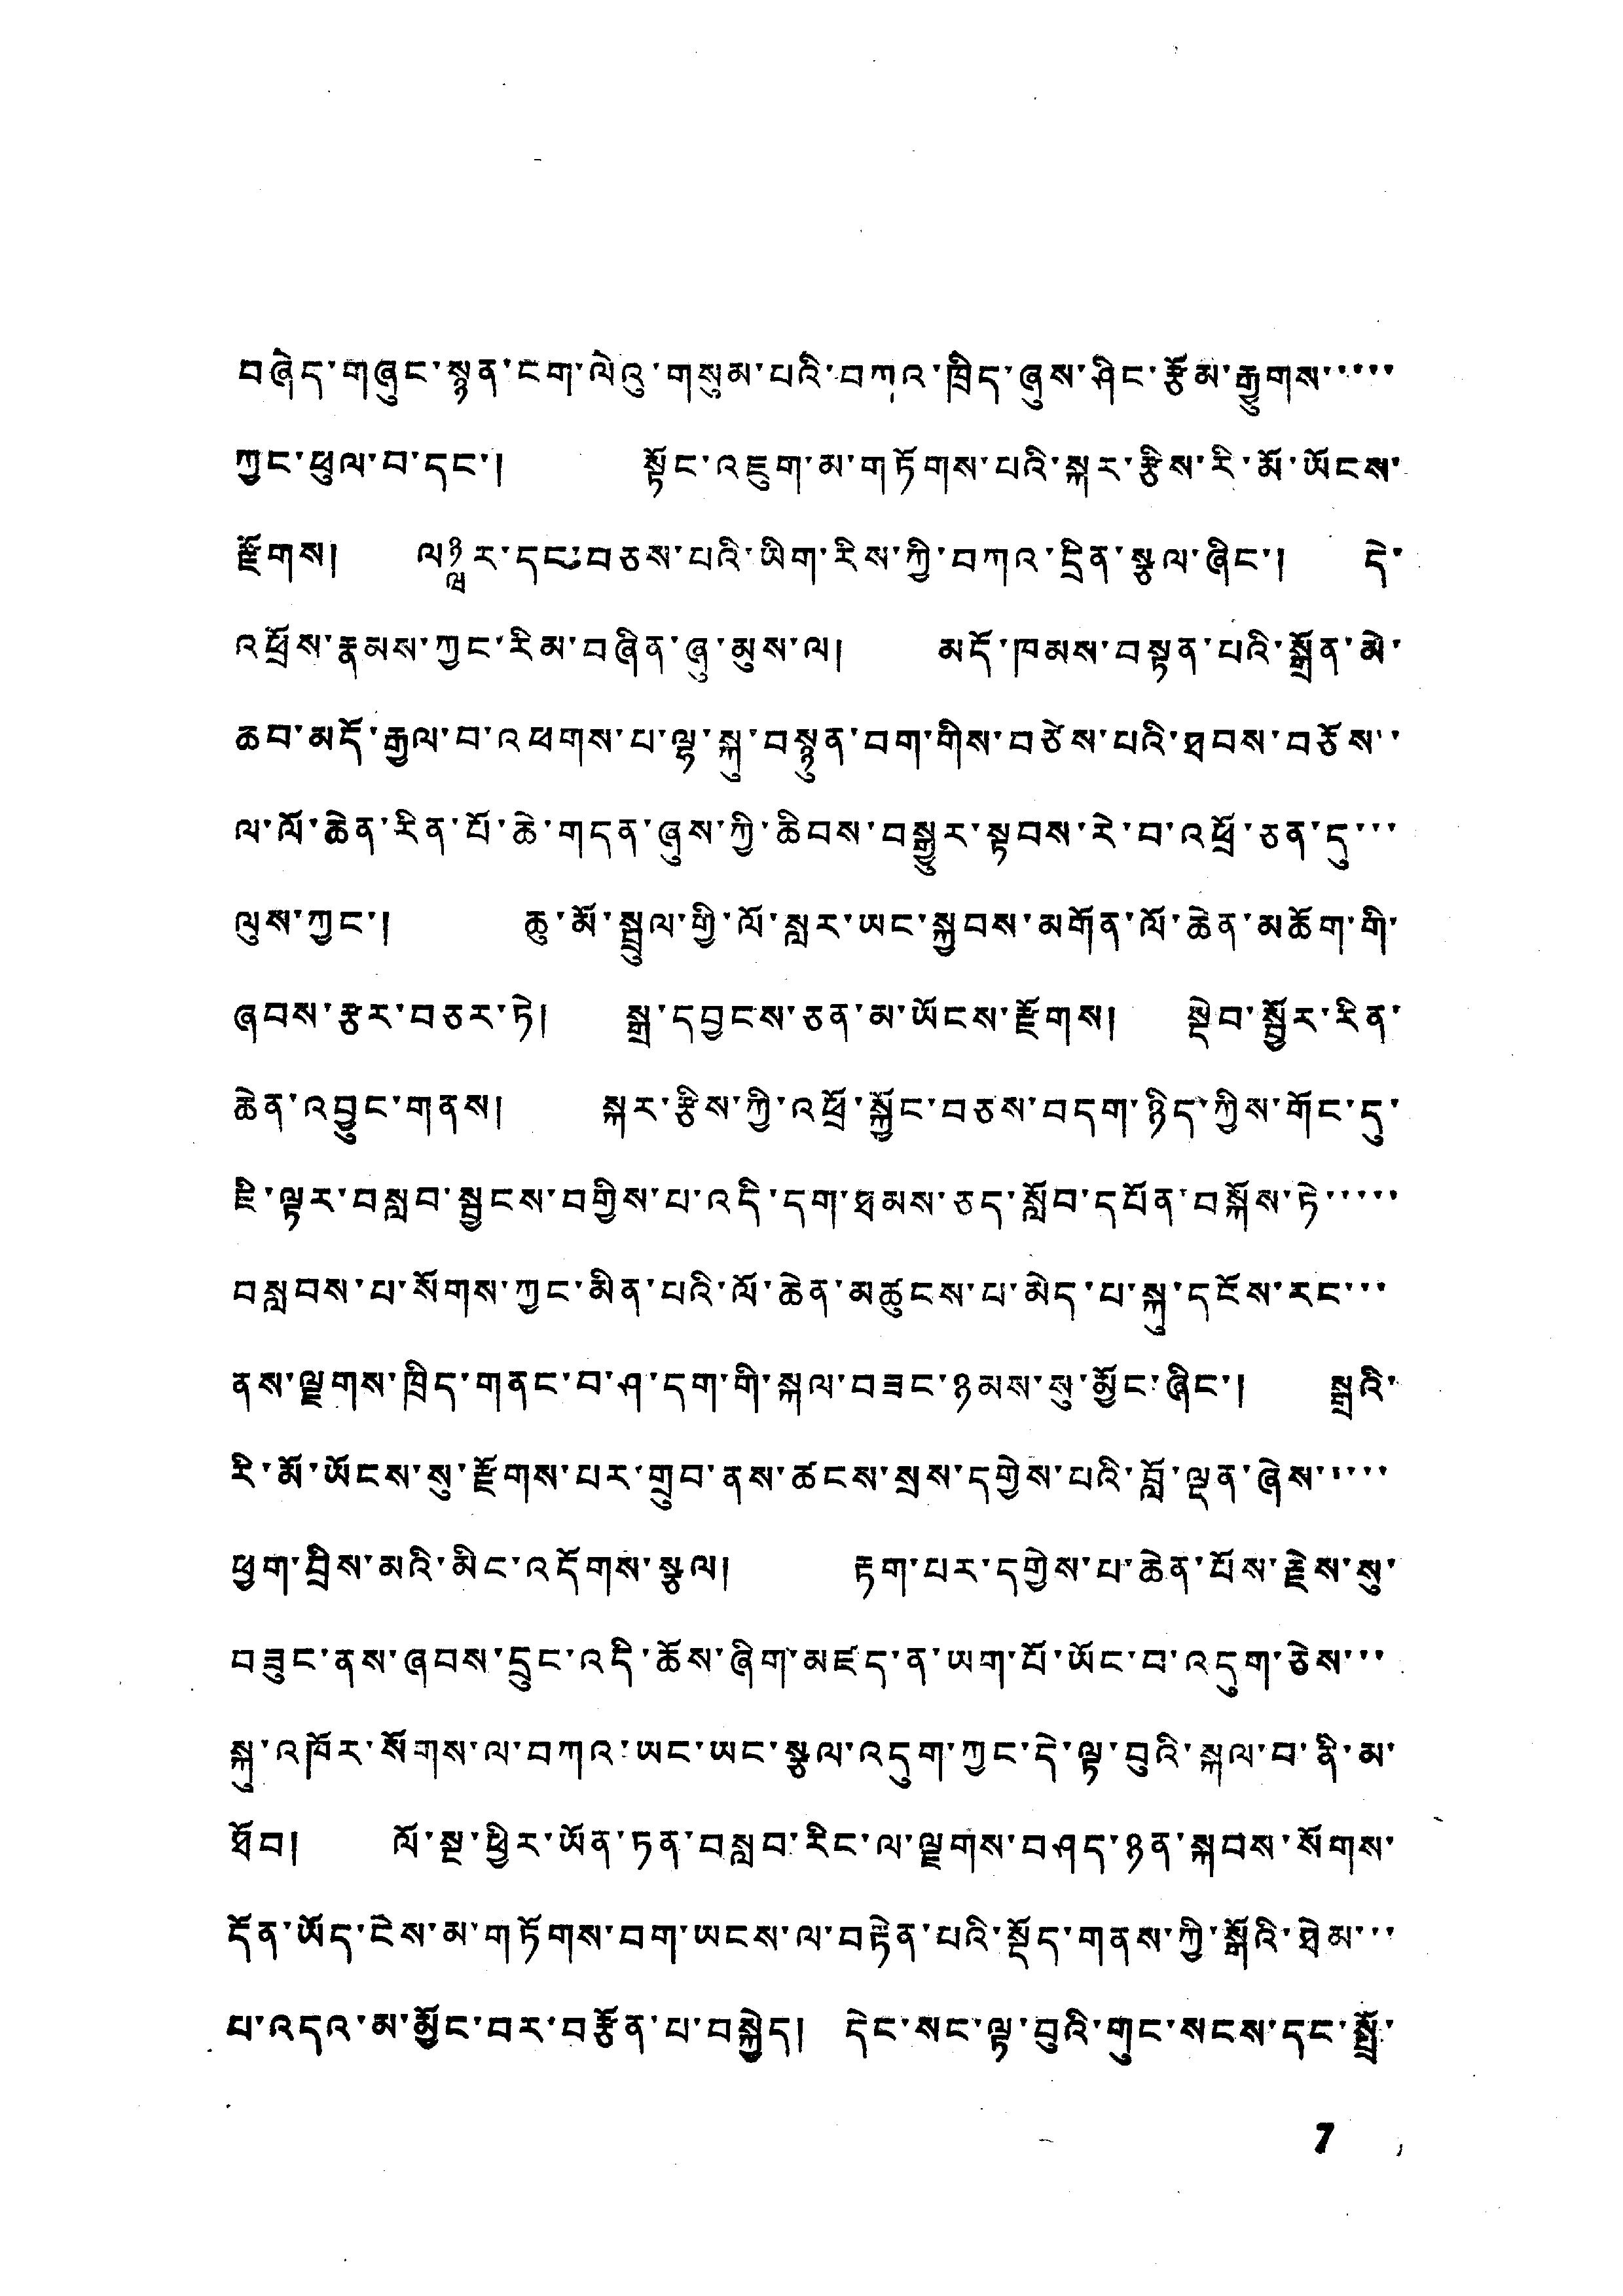བཞེད་གཞུང་སྙན་ངག་ལེའུ་གསུམ་པའི་བཀའ་ཁྲིད་ཞུས་ཤིང་རྩོམ་རྒྱུགས་་་་་
ཀྱང་ཕུལ་བ་དང་། སྟོང་འཇུག་མ་གཏོགས་པའི་སྐར་རྩིས་རི་མོ་ཡོངས་
རྫོགས། ལཉྺར་དང་བཅས་པའི་ཡིག་རིས་ཀྱི་བཀའ་དྲིན་སྩལ་ཞིང་། དེ་
འཕྲོས་རྣམས་ཀྱང་རིམ་བཞིན་ཞུ་མུས་ལ། མདོ་ཁམས་བསྟན་པའི་སྒྲོན་མེ་
ཆབ་མདོ་རྒྱལ་བ་འཕགས་པ་ལྷ་སྐུ་བསྙན་བག་གིས་བཙེས་པའི་ཐབས་བཅོས་་
ལ་ལོ་ཆེན་རིན་པོ་ཆེ་གདན་ཞུས་ཀྱི་ཆིབས་བསྒྱུར་སྟབས་རེ་བ་འཕྲོ་ཅན་དུ་་་
ལུས་ཀྱང་། ཆུ་མོ་སྦྲུལ་གྱི་ལོ་སླར་ཡང་སྐྱབས་མགོན་ལོ་ཆེན་མཆོག་གི་
ཞབས་རྩར་བཅར་ཏེ། སྒྲ་དབྱངས་ཅན་མ་ཡོངས་རྫོགས། སྡེབ་སྦྱོར་རིན་
ཆེན་འབྱུང་གནས། སྐར་རྩིས་ཀྱི་འཕྲོ་སྐྱོང་བཅས་བདག་ཉིད་ཀྱིས་གོང་དུ་
ཇི་ལྟར་བསླབ་སྦྱངས་བགྱིས་པ་འདི་དག་ཐམས་ཅད་སློབ་དཔོན་བསྐོས་ཏེ་་་་་
བསླབས་པ་སོགས་ཀྱང་མིན་པའི་ལོ་ཆེན་མཚུངས་པ་མེད་པ་སྐུ་དངོས་རང་་་
ནས་ལྗགས་ཁྲིད་གནང་བ་ཤ་དག་གི་སྐལ་བཟང་ཉམས་སུ་མྱོང་ཞིང་། སྦྲའི་
རི་མོ་ཡོངས་སུ་རྫོགས་པར་གྲུབ་ནས་ཚངས་སྲས་དགྱེས་པའི་བློ་ལྡན་ཞེས་་་་་
ཕྱག་བྲིས་མའི་མིང་འདོགས་སྩལ། རྟག་པར་དགྱེས་པ་ཆེན་པོས་རྗེས་སུ་
བཟུང་ནས་ཞབས་དྲུང་འདི་ཆོས་ཞིག་མཛད་ན་ཡག་པོ་ཡོང་བ་འདུག་ཅེས་་་
སྐུ་འཁོར་སོགས་ལ་བཀའ་ཡང་ཡང་སྩལ་འདུག་ཀྱང་དེ་ལྟ་བུའི་སྐལ་བ་ནི་མ་
ཐོབ། ལོ་སྔ་ཕྱིར་ཡོན་ཏན་བསླབ་རིང་ལ་ལྗགས་བཤད་ཉན་སྐབས་སོགས་་
དོན་ཡོད་ངེས་མ་གཏོགས་བག་ཡངས་ལ་བརྟེན་པའི་སྡོད་གནས་ཀྱི་སྒྲོའི་ཐེམ་་་
པ་འདའ་མ་མྱོང་བར་བརྩོན་པ་བསྐྱེད། དེང་སང་ལྟ་བུའི་གུང་སངས་དང་སྤྲོ་
7
